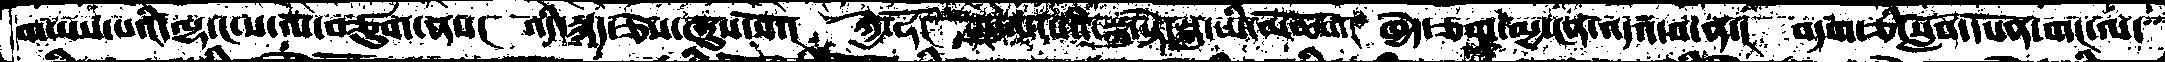གཡས་པའི་ལྷ་ང་ས་ལ་བཙུག་ནས།  འདི་སྐད་ཅེས་ཞུས་སོ་།  ཀྱེ་ཧོ།   སྤྲུལ་པའི་སྐུ་སྟེ་སྐུ་ཡི་མཆོག་།  ཁྱེད་ཅག་མྱ་ངན་འདའ་བ་ན་།  བདག་ཅི་སློབ་དཔོན་གང་ལ
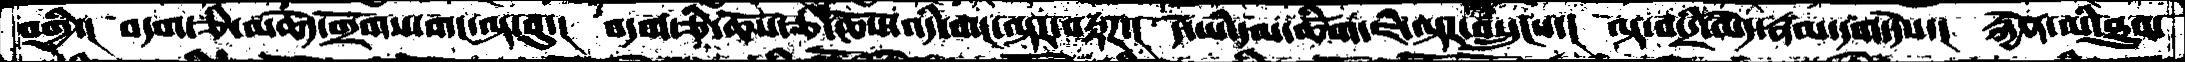བགྱི་།  བདག་ཅི་མཆེད་གྲོགས་གང་ལྟ་བུ་།  བདག་ཅི་ཆོསཅི་ཆོས་འདི་གང་ལྟར་བརྟཌ་།  དེ་ཡི་དམ་ཚིག་ཇི་ལྟར་བསྲུངས་།  ལྟ་བ་དྲི་མེད་རྣམ་དག་དེས་།  རྐྱེན་མི་ཐུབ་
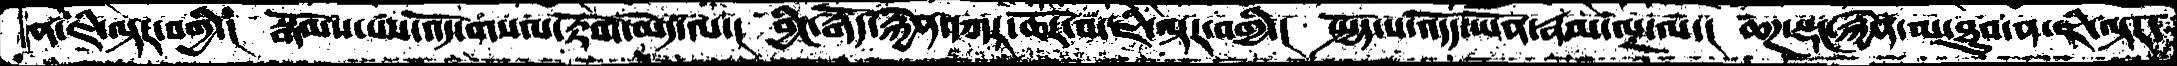ན་ཇི་ལྟར་བགྱི་།  སྒོམས་པས་འོད་གསལ་རྟོག་མེད་ལ་།  བྱིང་རྒོད་རྐྱེན་་དཀར་ཆོར་བ་ཇི་ལྟར་བགྱི་།  སྤྱོད་པ་འདོད་ཡོན་རྣམ་ལྔ་ལ་།  ཆཌ་སྡང་རྐྱེན་ལ་ཐུབ་ན་ཇི་ལྟར་
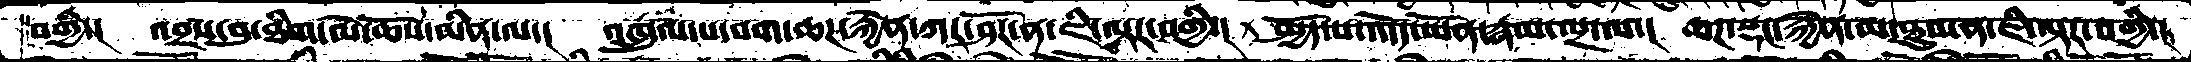བགྱི་།  འབྲས་བུ་ཐིག་ལེ་ཆོས་མིན་ལ་།  འཁྲུལ་པ་བག་ཆཌ་རྐྱེན་ཀར་ཤོར་ན་ཇི་ལྟར་བགྱི་།  སྤྱོད་པ་འདོད་ཡོན་རྣམ་ལྔ་ལ་།  ཆཌ་སྡང་རྐྱེན་མ་ཐུལ་ན་ཇི་ལྟར་བགྱི་།
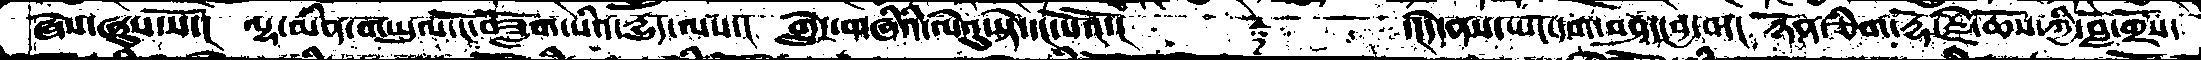ཞེས་ཞུས་སོ་།  ལྷ་མིན་གཡུལ་ངོ་བཟློག་པའི་རྒྱུད་ལས་།  གླེང་གཞིའི་ལེའུ་སྟེ་དང་པོའོ་།   ༈   ་།དེ་ནས་ཡང་དག་བཤད་བྱ་བ་།  ཉོན་ཅིག་རྡོ་རྗེ་ཆོས་ཀྱི་བློ་གྲོས་
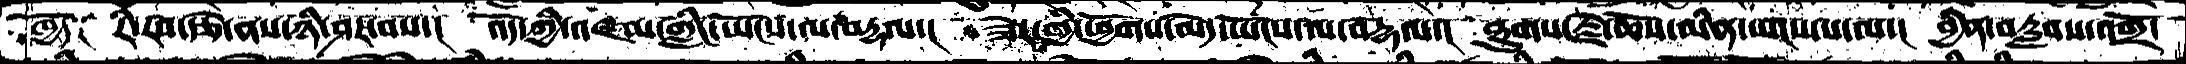ཁྱོད༑  རི་རབ་རྩེ་ནས་ཉི་ཤར་བས་།  འོད་ཀྱི་འཛམ་གླིང་ཡོངས་ལ་བརྡལ་།  ཟེར་གྱི་ཕྱོགས་མེད་ཡོངས་ལ་བརྡལ་།  ཐུགས་རྗེ་ཆོས་མིན་ཡངས་པ་ལ་།  བྱིན་བརླབས་འགྲོ་
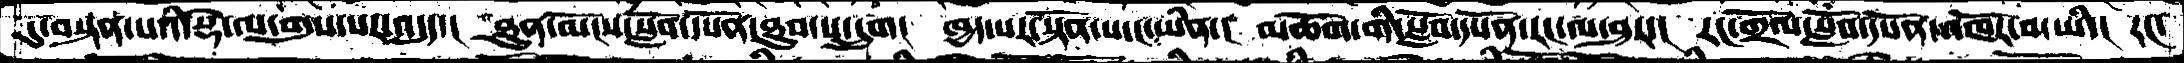དུ་བསྟན་པའི་སྡེ་ལ་གུས་པར་འདུད་།  ཐུན་མོངས་སློབ་དཔོན་ཐུབ་པ་དྲུག།  ཁྱད་པར་སྟོན་པ་ང་ཡིན་།  མཆོག་གི་སློབ་དཔོན་རང་ལ་ཤར་།  རང་གྲོལ་སློབ་དཔོན་འཁོར་བ་ཡི་།  རང་
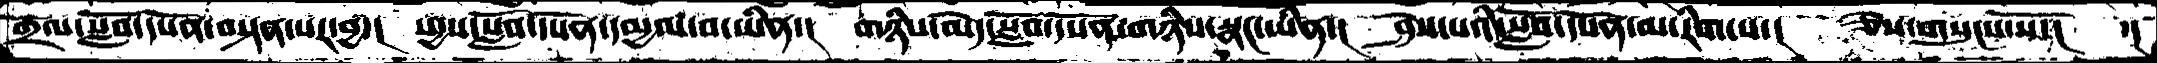གྲོལ་སློབ་དཔོན་བསྟན་པར་བྱ་།  སདྱས་སློབ་དཔོན་དམྱལ་བ་ཡིན་།  གཉིས་མེད་སློབ་དཔོན་གཉིས་སྣང་ཡིན་།  ཤེས་པའི་སློབ་དཔོན་མ་རིག་པ་།  ཅེས་གསུངས་སོ་།  ་།
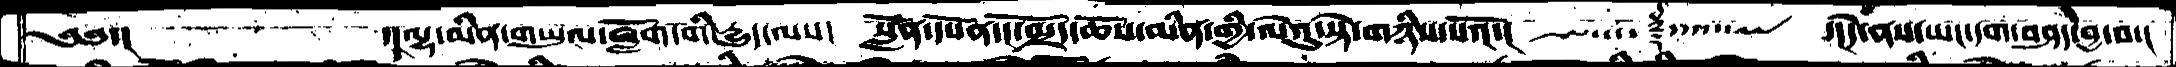༄༅་།    ་།ལྷ་མིན་གཡུལ་ཟློག་གི་དྱུད་ལས། སློབ་དཔོན་ངོ་སྤྲོད་ཆོས་མིན་གྱི་ལེའུ་སྟེ་གཉིས་པའོ་།   ༒   ་།དེ་ནས་ཡང་དག་བཤད་བྱ་བ་།
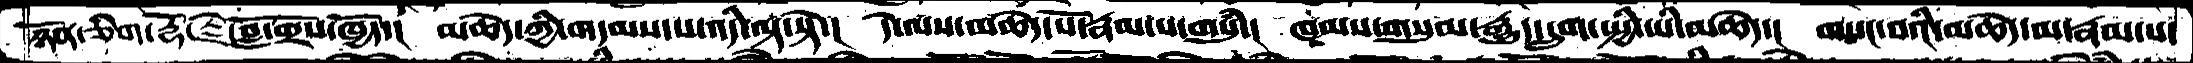ཉོན་ཅིག་རྡོ་རྗེ་བློ་གྲོས་ཁྱོད་།  མཆེད་ཀྱི་གདམས་པ་འདི་ལྟ་སྟེ་།  དེ་ལས་མཆེད་པོ་རྣམ་པ་གསུཾ་།  ཁམས་གསུམ་རྒྱུད་དྲུག་སྤྱི་ཡི་མཆེད་།  གསང་བའི་མཆེད་མ་རྣམ་པ་
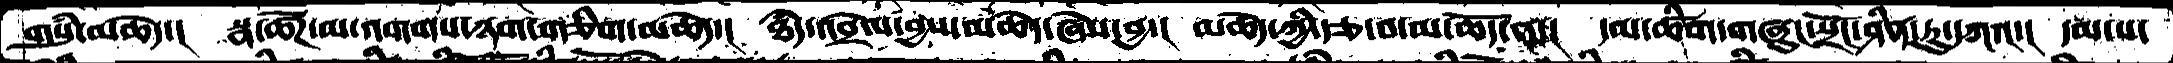གསུཾ་མཆེད་།  སྣ་ཚོཌ་མ་འགགས་ཉག་གཅིག་མཆེད་།  ཐདཾ་འབྲེལ་བྱས་མཆེད་ཞེས་བྱ་།  མཆེད་ཀྱི་རྩ་བ་མ་ཆོད་ན་།  དམ་ཚིག་གཞུང་སྲོང་ཤིན་ཏུ་དཀའ་།  དམ་པ་
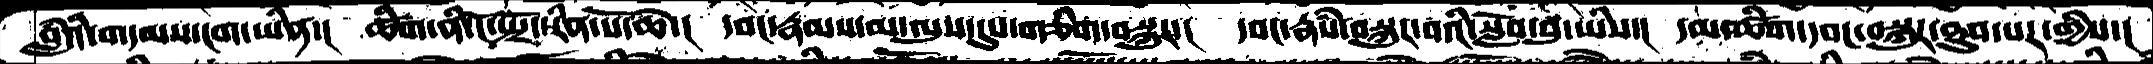བླཾའི་གདམས་ངག་ཡིན་།  ཚིག་ནི་ངོ་སྤྲོད་རིན་པོ་ཆེ་།  དབང་རྣམས་མ་ལུས་དུས་གཅིག་བསྐུར་།  དབང་རྣཾས་བསྐུར་བའི་སློབ་བུ་ཡིས་།  དམ་ཚིག་དབང་བསྐུར་ཐུབ་པར་གྱིས་།
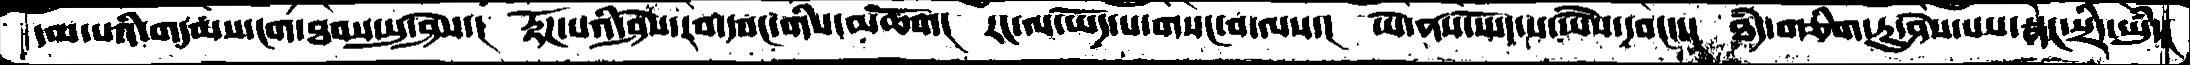དམ་པའི་གདམས་ངག་ཐབས་སུ་ཤེས་།  རྟོཌ་པའི་ཤེས་རབ་དབང་གིས་མཆོག།  རང་ལ་ཡོད་པ་གསང་བ་ལས་།  ཡེ་ནས་ཡོད་པ་ཡཻས་དབང་་།  ཐདཾ་གཅིག་ཏུ་ཤེས་པས་སྣང་སྲིད་ཡུཾ་།
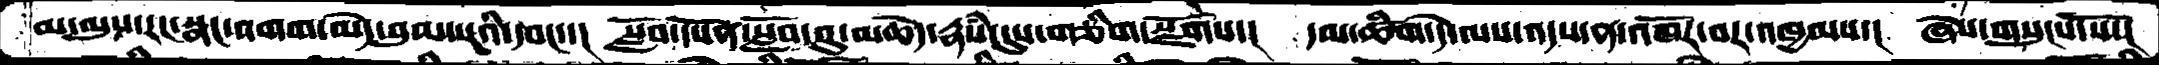མ་ལུས་རང་སྣང་འགག་མེད་བུམ་པའི་དབང་་།  སློབ་དཔོན་སློབ་བུ་མཆེད་རྣཾས་དུས་གཅིག་སྫོགས་།  དམ་ཚིག་དེ་ལས་འདས་ན་འཁོར་བར་འཁྱམས་།  ཞེས་གསུངས་སོ་།
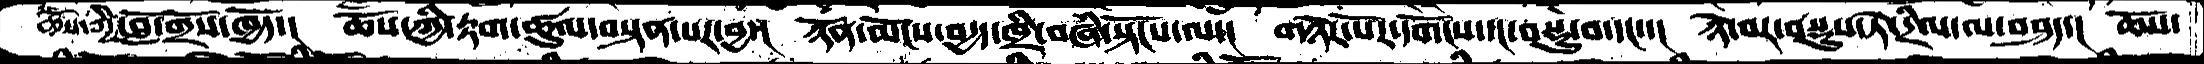ཆོས་ཀྱི་བློ་གྲོས་ཁྱོད་།  ཆོས་ཀྱི་རྟག་ཚུལ་བསྟན་པར་བྱ་།  ཉོན་མོངས་བདྱད་ཁྲི་བཞི་སྟོངས་ལ་།  གཉེར་པོར་དགོངས་དང་བསྡུ་བ་དང་་།  ཉེ་བར་བསྡུས་ཏེ་དྲིལ་ལ་བཤད་།  ཆོས་
